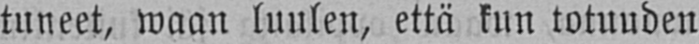tuneet, waan luulen, että kun totuuden
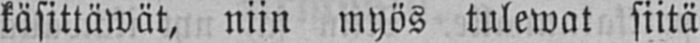käsittäwät, niin myös tulewat siitä
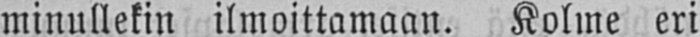minullekin ilmoittamaan. Kolme eri
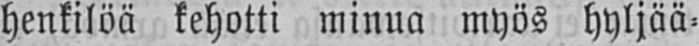henkilöä kehotti minua myös hyljää-
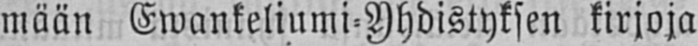mään Ewankeliumi-Yhdistyksen kirjoja
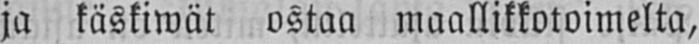ja käskiwät ostaa maallikkotoimelta,
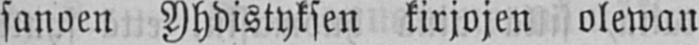sanoen Yhdistyksen kirjojen olewan
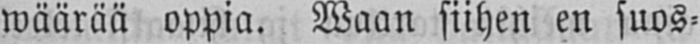wäärää oppia. Waan siihen en suos-
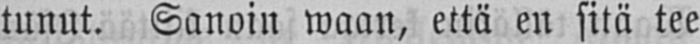tunut. Sanoin waan, että en sitä tee
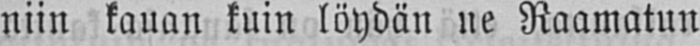niin kauan kuin löydän ne Raamatun
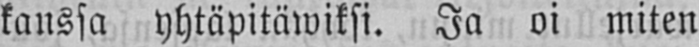kanssa yhtäpitäwiksi. Ja oi miten
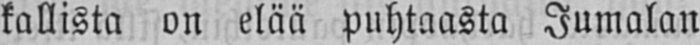kallista on elää puhtaasta Jumalan
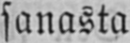sanasta!
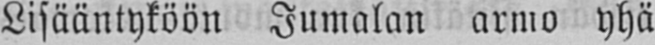Lisääntyköön Jumalan armo yhä
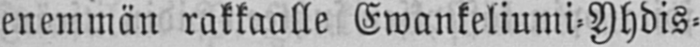enemmän rakkaalle Ewankeliumi-Yhdis-
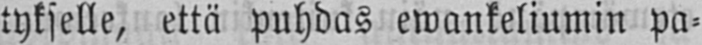tykselle, että puhdas ewankeliumin Pa-
